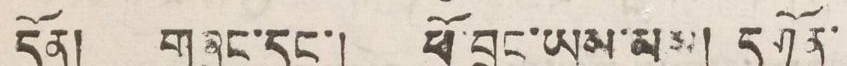དོན། གཞུང་དང། ཕོ་བྲང་ཡམ་མས། དགོན་
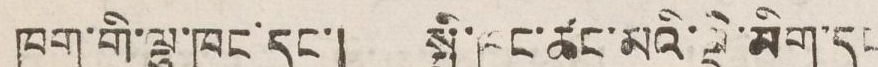ཁག་གི་ལྷ་ཁང་དང་། སྤྱི་ཁང་ཚང་མའི་ལྡི་མིག་དང
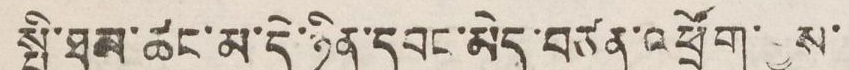སྤྱི་ཐམ་ཚང་མ་དེ་ཉིད་དབང་མེད་བཙན་འཕྲོག་བྱས་
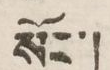སོང་།
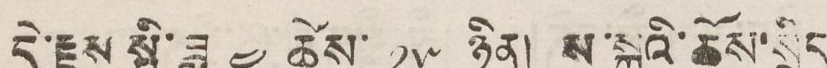དེ་རྗས སྤྱི་ཟླ ༤ ཚེས་ ༡༥ ཉིན། ས་སྐྱའི་ཆོས་སྲིད
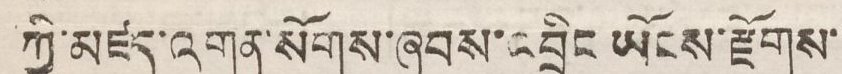ཀྱི་མཛད་འགན་སོགས་ཞབས་འབྲིང ཡོངས་རྫོགས་
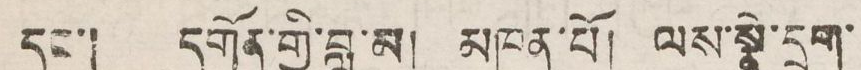དང་། དགོན་གྱི་བླ་མ། མཁན་པོ། ལས་སྣེ་དྲག་
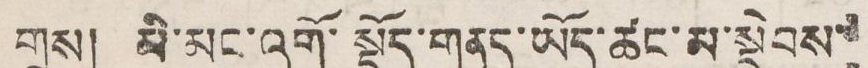གྲས། མི་མང་འགོ་སྡོད་གནད་ཡོད་ཚང་མ་སྡེབས་
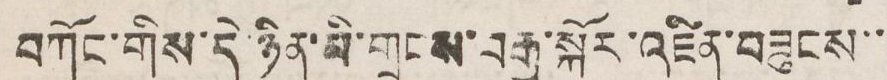བཀོང་གིས་དེ་ཉིན་མི་གྲངས་བརྒྱ་སྐོར་འཛིན་བཟུངས་་
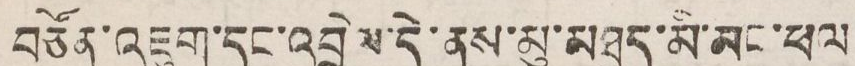བཙོན་འཇུག་དང་འབྲེལ་དེ་ནས་མུ་མཐུད་མི་མང་ཕལ
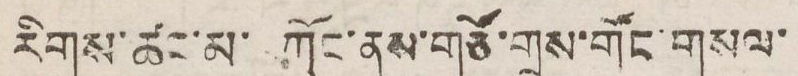རིགས་ཚང་མ་ ཀོང་ནས་གཙོ་གྲས་གོང་གསལ་
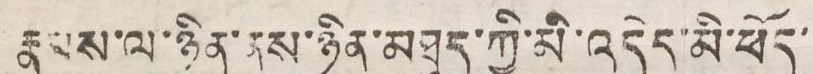རྣམས་ལ་ཉིན་ནས་ཉིན་མཐུད་ཀྱི་མི་འདེད་མི་ཕོད་
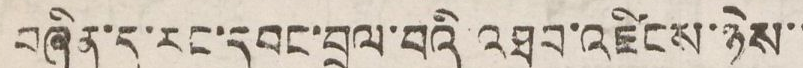བཞིན་དུ་རང་དབང་བྲལ་བའི་འཐབ་འཛིངས་ཉེས་་
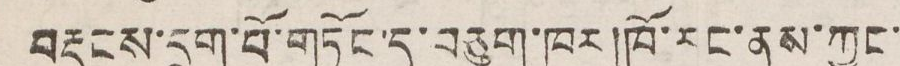བརྡུངས་དྲག་པོ་གཏོང་དུ་བཅུག་ཁར།ཁོ་རང་ནས་ཀྱང་
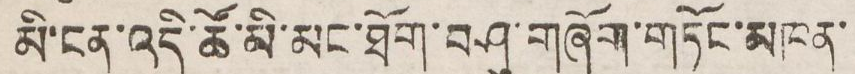མི་ངན་འདི་ཚོ་མི་མང་ཐོག་བཤུ་གཞོག་གཏོང་མཁན་
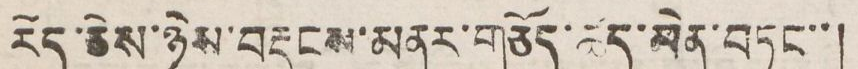རེད་ཅེས་ཉེས་བརྡུངས་མནར་གཅོད་ཚད་མེན་བཏང་་།
